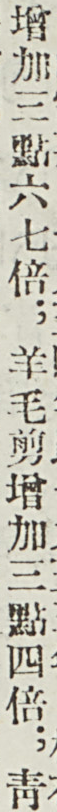增加三點六七倍；羊毛剪增加三點四倍；靑
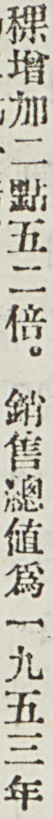稞增加二點五二倍。銷售總值爲一九五三年
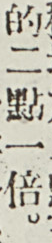的二點一倍。
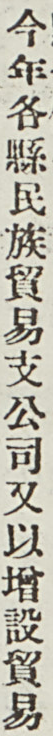今年各縣民族貿易支公司又以增設貿易
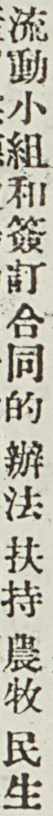流動小組和簽訂合同的辦法扶持農牧民生
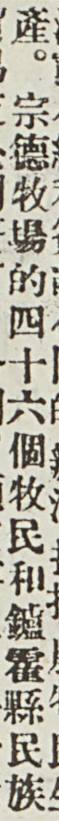產。宗德牧場的四十六個牧民和鑪霍縣民族
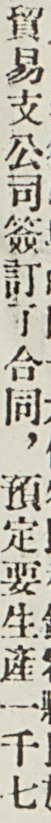貿易支公司簽訂了合同，預定要生產一千七
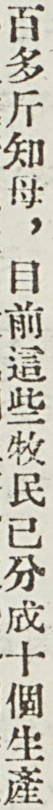百多斤知母，目前這些牧民已分成十個生產
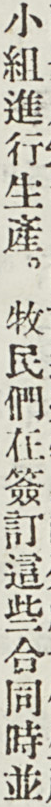小組進行生產。牧民民在簽訂這些合同時並
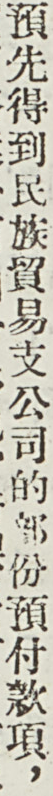預先得到民族貿易支公司的部分預付款項，
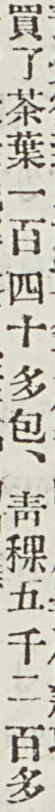買了茶葉一百四十多包、靑稞五千二百多
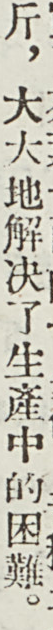斤，大大地解決了生產中的困難。
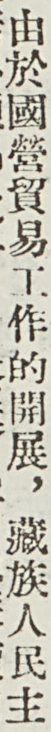由於國營貿易工作的開展，藏族人民主
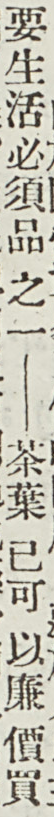要生活必須品之一——茶葉 已可以廉價買
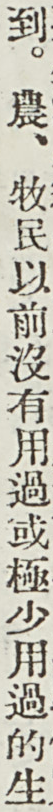到。農、牧民以前沒有用過或極少用過的生
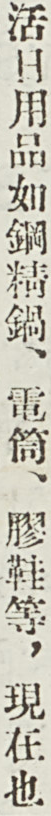活日用品如鋼精鍋、電筒、膠鞋等，現在也
